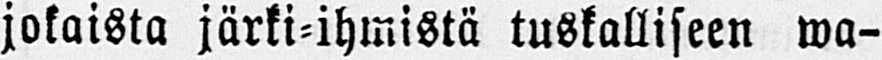jokaista järki-ihmistä tuskalliseen wa-
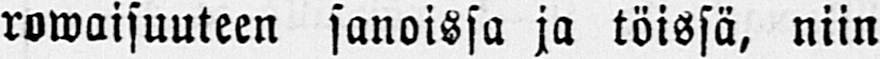rowaisuuteen sanoissa ja töissä, niin
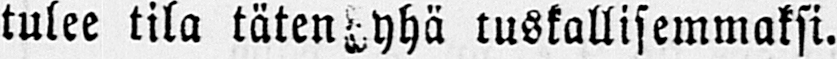tulee tila täten yhä tuskallisemmaksi.
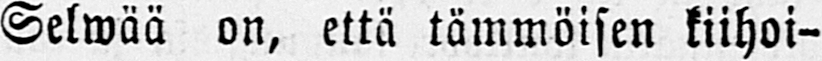Selwää on, että tämmöisen kiihoi-
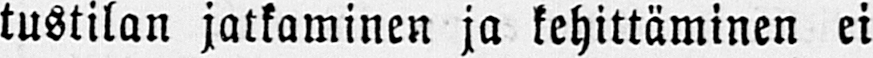tustilan jatkaminen ja kehittäminen ei
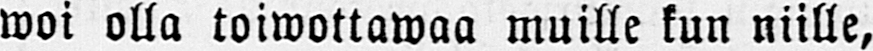woi olla toiwottawaa muille kun niille,
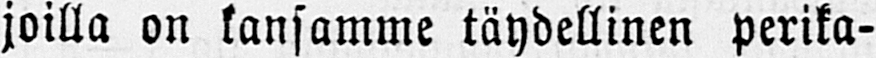joilla on kansamme täydellinen perika-
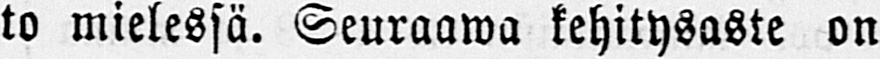to mielessä. Seuraawa kehitysaste on
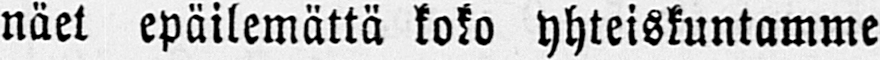näet epäilemättä koko yhteiskuntamme
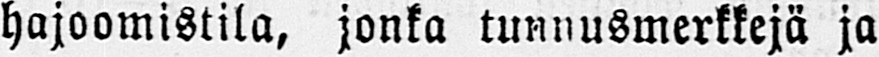hajoamistila, jonka tunnusmerkkejä ja
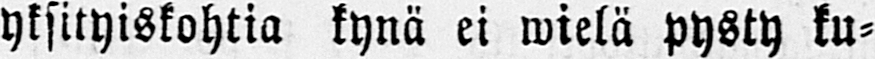yksityiskohtia kynä ei wielä pysty ku-
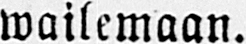wailemaan.
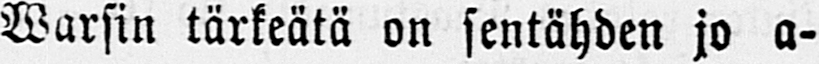Warsin tärkeätä on sentähden jo a-
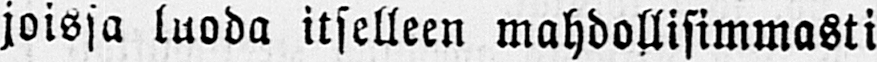joissa luoda itselleen mahdollisimmasti
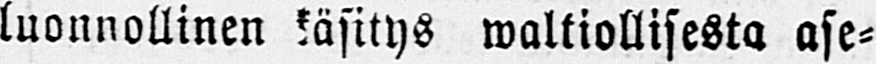luonnollinen käsitys waltiollisesta ase-
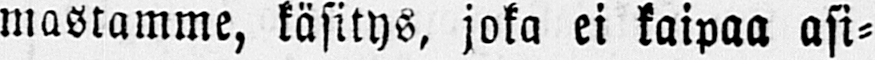mastamme, käsitys, joka ei kaipaa asi-
